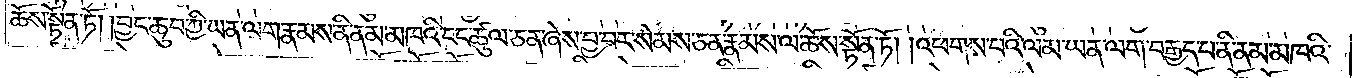ཆོས་སྟོན་ཏོ། །བྱང་ཆུབ་ཀྱི་ཡན་ལག་རྣམས་ནི་ནམ་མཁའི་ངང་ཚུལ་ཅན་ཞེས་བྱ་བར་སེམས་ཅན་རྣམས་ལ་ཆོས་སྟོན་ཏོ། །འཕགས་པའི་ལམ་ཡན་ལག་བརྒྱད་པ་ནི་ནམ་མཁའི་
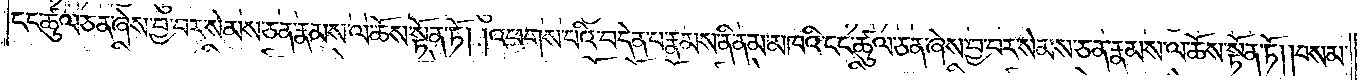ངང་ཚུལ་ཅན་ཞེས་བྱ་བར་སེམས་ཅན་རྣམས་ལ་ཆོས་སྟོན་ཏོ། །འཕགས་པའི་བདེན་པ་རྣམས་ནི་ནམ་མཁའི་ངང་ཚུལ་ཅན་ཞེས་བྱ་བར་སེམས་ཅན་རྣམས་ལ་ཆོས་སྟོན་ཏོ། །བསམ་
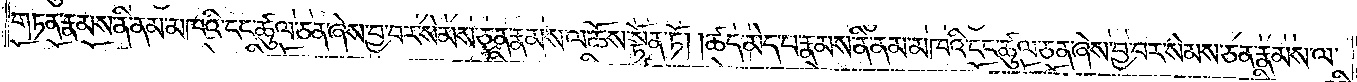གཏན་རྣམས་ནི་ནམ་མཁའི་ངང་ཚུལ་ཅན་ཞེས་བྱ་བར་སེམས་ཅན་རྣམས་ལ་ཆོས་སྟོན་ཏོ། །ཚད་མེད་པ་རྣམས་ནི་ནམ་མཁའི་ངང་ཚུལ་ཅན་ཞེས་བྱ་བར་སེམས་ཅན་རྣམས་ལ་
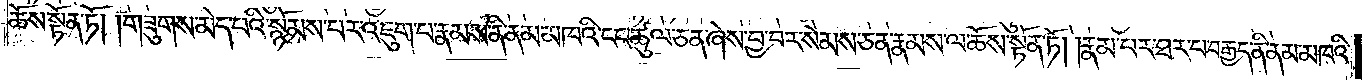ཆོས་སྟོན་ཏོ། །གཟུགས་མེད་པའི་སྙོམས་པར་འཇུག་པ་རྣམས་ནི་ནམ་མཁའི་ངང་ཚུལ་ཅན་ཞེས་བྱ་བར་སེམས་ཅན་རྣམས་ལ་ཆོས་སྟོན་ཏོ། །རྣམ་པར་ཐར་པ་བརྒྱད་པ་ནི་ནམ་མཁའི་
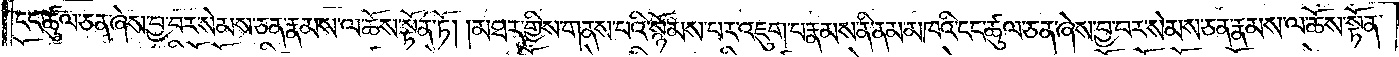ངང་ཚུལ་ཅན་ཞེས་བྱ་བར་སེམས་ཅན་རྣམས་ལ་ཆོས་སྟོན་ཏོ། །མཐར་གྱིས་གནས་པའི་སྙོམས་པར་འཇུག་པ་རྣམས་ནི་ནམ་མཁའི་ངང་ཚུལ་ཅན་ཞེས་བྱ་བར་སེམས་ཅན་རྣམས་ལ་ཆོས་སྟོན་
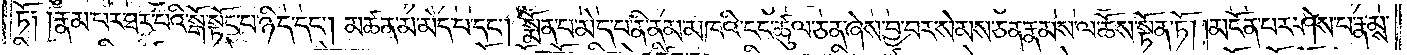ཏོ༑ ༑རྣམ་པར་ཐར་པའི་སྒོ་སྟོང་པ་ཉིད་དང༌། མཚན་མ་མེད་པ་དང༌། སྨོན་པ་མེད་པ་ནི་ནམ་མཁའི་ངང་ཚུལ་ཅན་ཞེས་བྱ་བར་སེམས་ཅན་རྣམས་ལ་ཆོས་སྟོན་ཏོ། །མངོན་པར་ཤེས་པ་རྣམས་
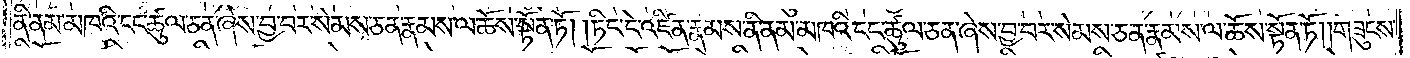ནི་ནམ་མཁའི་ངང་ཚུལ་ཅན་ཞེས་བྱ་བར་སེམས་ཅན་རྣམས་ལ་ཆོས་སྟོན་ཏོ། །ཏིང་ངེ་འཛིན་རྣམས་ནི་ནམ་མཁའི་ངང་ཚུལ་ཅན་ཞེས་བྱ་བར་སེམས་ཅན་རྣམས་ལ་ཆོས་སྟོན་ཏོ། །གཟུངས་
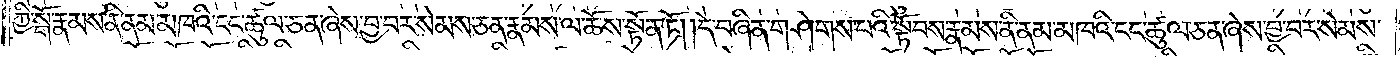ཀྱི་སྒོ་རྣམས་ནི་ནམ་མཁའི་ངང་ཚུལ་ཅན་ཞེས་བྱ་བར་སེམས་ཅན་རྣམས་ལ་ཆོས་སྟོན་ཏོ། །དེ་བཞིན་གཤེགས་པའི་སྟོབས་རྣམས་ནི་ནམ་མཁའི་ངང་ཚུལ་ཅན་ཞེས་བྱ་བར་སེམས་
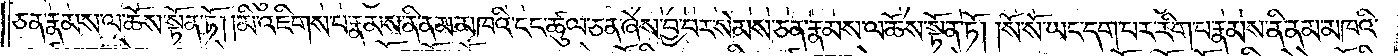ཅན་རྣམས་ལ་ཆོས་སྟོན་ཏོ། །མི་འཇིགས་པ་རྣམས་ནི་ནམ་མཁའི་ངང་ཚུལ་ཅན་ཞེས་བྱ་བར་སེམས་ཅན་རྣམས་ལ་ཆོས་སྟོན་ཏོ། །སོ་སོ་ཡང་དག་པར་རིག་པ་རྣམས་ནི་ནམ་མཁའི་
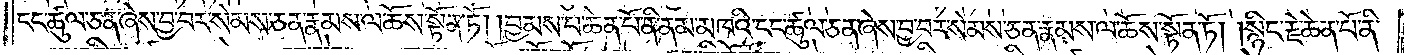ངང་ཚུལ་ཅན་ཞེས་བྱ་བར་སེམས་ཅན་རྣམས་ལ་ཆོས་སྟོན་ཏོ། །བྱམས་པ་ཆེན་པོ་ནི་ནམ་མཁའི་ངང་ཚུལ་ཅན་ཞེས་བྱ་བར་སེམས་ཅན་རྣམས་ལ་ཆོས་སྟོན་ཏོ། །སྙིང་རྗེ་ཆེན་པོ་ནི་
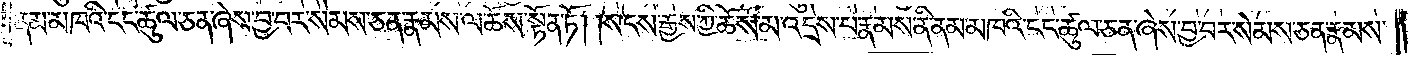ནམ་མཁའི་ངང་ཚུལ་ཅན་ཞེས་བྱ་བར་སེམས་ཅན་རྣམས་ལ་ཆོས་སྟོན་ཏོ། །སངས་རྒྱས་ཀྱི་ཆོས་མ་འདྲེས་པ་རྣམས་ནི་ནམ་མཁའི་ངང་ཚུལ་ཅན་ཞེས་བྱ་བར་སེམས་ཅན་རྣམས་
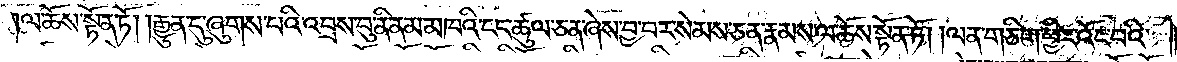ལ་ཆོས་སྟོན་ཏོ། །རྒྱུན་དུ་ཞུགས་པའི་འབྲས་བུ་ནི་ནམ་མཁའི་ངང་ཚུལ་ཅན་ཞེས་བྱ་བར་སེམས་ཅན་རྣམས་ལ་ཆོས་སྟོན་ཏོ། །ལན་གཅིག་ཕྱིར་འོང་བའི་
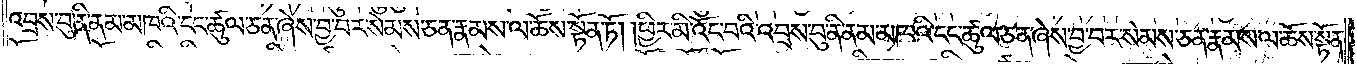འབྲས་བུ་ནི་ནམ་མཁའི་ངང་ཚུལ་ཅན་ཞེས་བྱ་བར་སེམས་ཅན་རྣམས་ལ་ཆོས་སྟོན་ཏོ། །ཕྱིར་མི་འོང་བའི་འབྲས་བུ་ནི་ནམ་མཁའི་ངང་ཚུལ་ཅན་ཞེས་བྱ་བར་སེམས་ཅན་རྣམས་ལ་ཆོས་སྟོན་
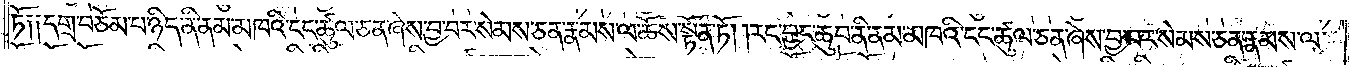ཏོ༑༑དགྲ་བཅོམ་པ་ཉིད་ནི་ནམ་མཁའི་ངང་ཚུལ་ཅན་ཞེས་བྱ་བར་སེམས་ཅན་རྣམས་ལ་ཆོས་སྟོན་ཏོ། །རང་བྱང་ཆུབ་ནི་ནམ་མཁའི་ངང་ཚུལ་ཅན་ཞེས་བྱ་བར་སེམས་ཅན་རྣམས་ལ་
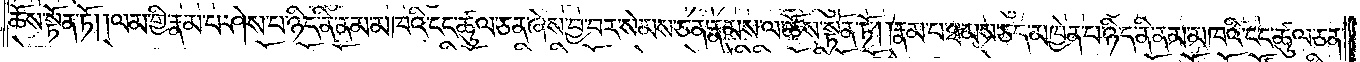ཆོས་སྟོན་ཏོ། །ལམ་གྱི་རྣམ་པ་ཤེས་པ་ཉིད་ནི་ནམ་མཁའི་ངང་ཚུལ་ཅན་ཞེས་བྱ་བར་སེམས་ཅན་རྣམས་ལ་ཆོས་སྟོན་ཏོ། །རྣམ་པ་ཐམས་ཅད་མཁྱེན་པ་ཉིད་ནི་ནམ་མཁའི་ངང་ཚུལ་ཅན་
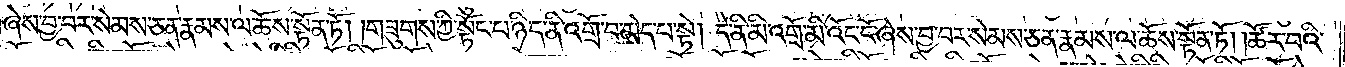ཞེས་བྱ་བར་སེམས་ཅན་རྣམས་ལ་ཆོས་སྟོན་ཏོ། །གཟུགས་ཀྱི་སྟོང་པ་ཉིད་ནི་འགྲོ་བ་མེད་པ་སྟེ། དེ་ནི་མི་འགྲོ་མི་འོང་ངོ་ཞེས་བྱ་བར་སེམས་ཅན་རྣམས་ལ་ཆོས་སྟོན་ཏོ། །ཚོར་བའི་
